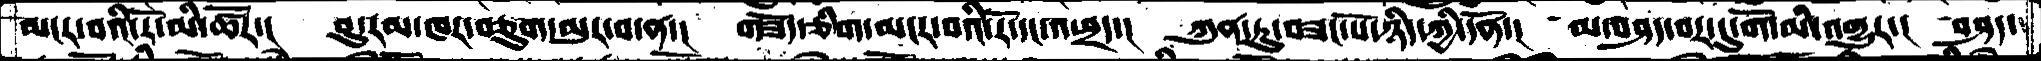མངར་བའི་རོ་མི་ཚོར་།  བུ་རམ་ཁར་བཅུག་མུར་བ་ན་།  གཟོད་ཅིག་མངར་བའི་རོ་དང་འཕྲད་།  ཀུན་ཏུ་བཟང་པོ་ཉིད་ཀྱི་དོན་།  མ་བཤད་བར་དུ་གོ་མི་འགྱུར་།  བཤད་
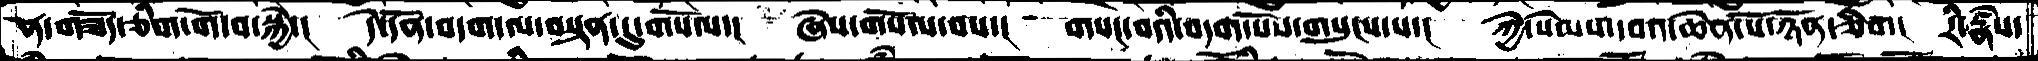ན་གཟོད་ཅིག་གོ་བ་སྐྱེ་།  དེ་དོན་བདག་ལ་བསྟན་དུ་གསོལ་།  ཞེས་གསོལ་བས་།  གསང་བའི་བདག་པོས་གསུངས་པ་།  ཀྱེ་སེམས་དཔའ་ཆེན་པོ་ཉོན་ཅིག།  རི་རྣཾས་
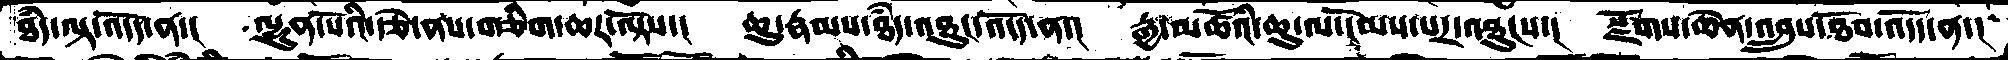ཐཾད་ལྟ་འདོད་ན་།  ལྷུན་པོའི་རྩེ་ནས་གཅིག་ཆར་ལྟོས་།  ཆུ་རྣམས་ཐཾད་འཐུང་འདོད་ན་།  རྒྱ་མཚོའི་ཆུ་ལ་ངོམས་པར་འཐུངས་།  སྫོགས་ཆེན་འབྲུས་ཐོབ་འདོད་ན་།
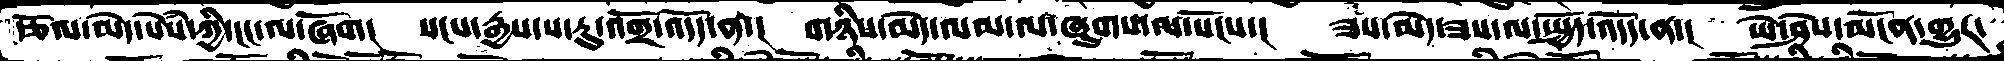རྩོལ་མེད་སེཾས་ཀྱི་ངང་ལ་ཞོག།  སངས་རྒྱས་ས་རུ་འགྲོ་འདོད་ན་།  གཉིས་མེད་ལམ་ལ་ཞུགས་ལ་སོངས་།  ཟས་མེད་ཟས་ལ་སྤྱོད་འདོད་ན་།  ཡེ་ཤེས་མངོན་གྱུར་
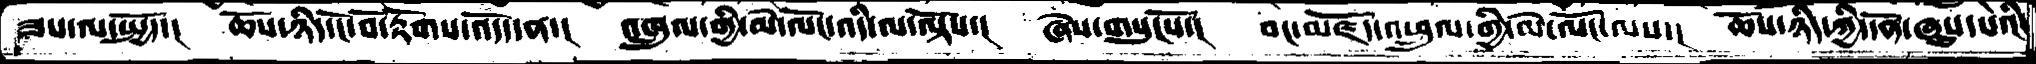ཟས་ལ་སྤྱོད་།  ཆོས་ཉིད་ངོ་བོ་རྟོགས་འདོད་ན་།  འཁྲུལ་གྱི་མེ་ལོང་འདི་ལ་ལྟོས་།  ཞེས་གསུངསོ་།  བང་མཛོད་འཕྲུལ་གྱི་མེ་ལོང་ལས་།  ཆོས་ཉིད་ཀྱི་དོན་ཞུས་པའི་
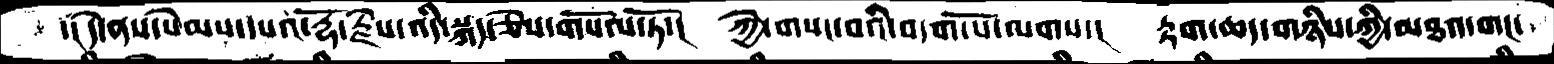་། དེ་ནས་སེམས་དཔའ་རྡོ་རྗེས་འདི་སྐད་ཅེས་གསོལ་ཏོ་།  ཀྱེ་གསང་བའི་བདག་པོ་ལགས་།  རྟག་ཆད་གཉིས་ཀྱི་མཐའ་གང་
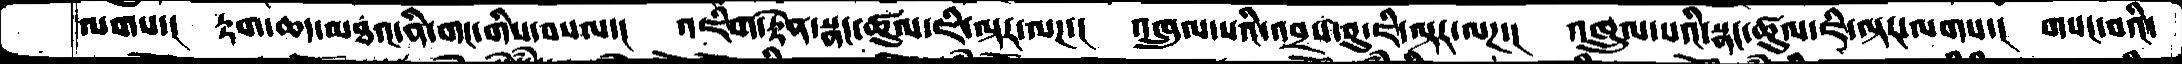ལགས་།  རྟག་ཆད་མཐའ་ནི་གང་གིས་བསལ་།  འཇིག་རྟེན་སྣང་ཚུལ་ཇི་ལྟར་ལཌ་།  འཁྲུལ་པའི་འབྲས་བུ་ཇི་ལྟར་ལཌ་།  འཁྲུལ་པའི་སྣང་ཚུལ་ཇི་ལྟར་ལགས་།  གསང་བའི་
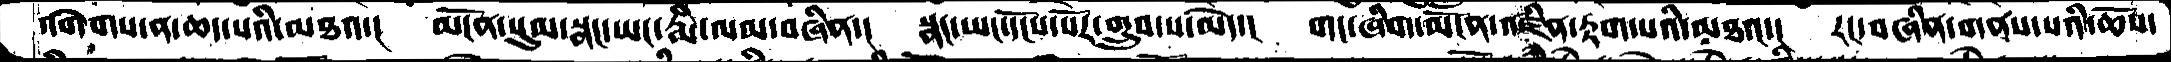འགེགས་ན་ཆད་པའི་མཐའ་།  མངོན་སུམ་སྣང་ཡང་རྨི་ལམ་བཞིན་།  སྣང་ཡང་དངོས་པོར་གྲུབ་པ་མེད་།  གང་ཞིག་མངོན་འཛིན་རྟག་པའི་མཐའ་།  རང་བཞིན་གནས་པའི་ཆོས་
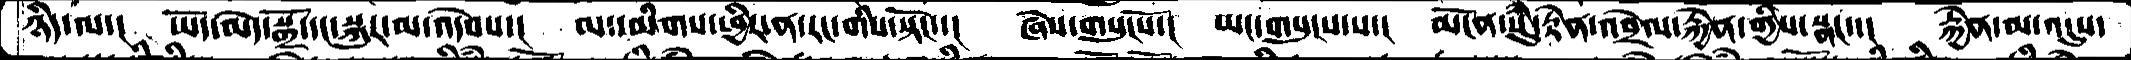ཉིད་ལ་།  ཡོད་མེད་སྒྲོ་དང་སྐུར་མ་འདེབས་།  མ་དམིགས་ཕྱིར་ན་རང་གིས་སྟོང་།  ཞེས་གསུངསོ་།  ཡང་གསུངས་པ་།  མངོན་སུཾ་རྟེན་འབྲེལ་རྐྱེན་གྱིས་སྣང་་།  རྐྱེན་མ་འདུས་
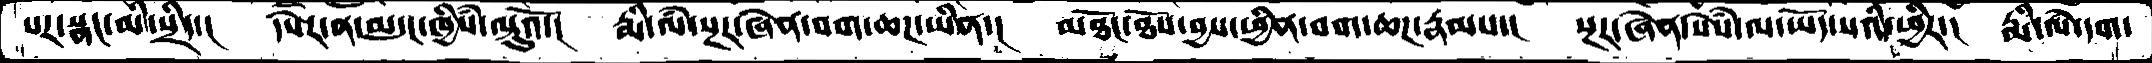པར་སྣང་མི་སྲིད་།  དཔེར་ན་མདུང་ཁྱིཾས་ལྟུའོ་།  རྨི་ལཾ་སྔར་ཞེན་བག་ཆཌ་ཡིན་།  མཐོང་ཐོས་བྱས་ནས་བག་ཆཌ་རྣམས་།  སྔར་ཞེན་སེཾས་ལ་ཡོད་པའི་ཕྱིར་།  རྨི་ལཾ་དག་
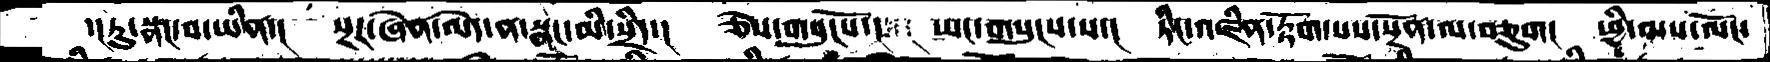་།ཏུ་སྣང་བ་ཡིན་།  སྔར་ཞེན་མེད་ན་སྣང་མི་སྲིད་།  ཅེས་གསུངསོ་།  ཡང་གསུངས་པ་།  ཏིང་འཛིན་རྟོག་པས་སྔོན་ལ་བཅུག།  ཕྱི་མས་ལོང་
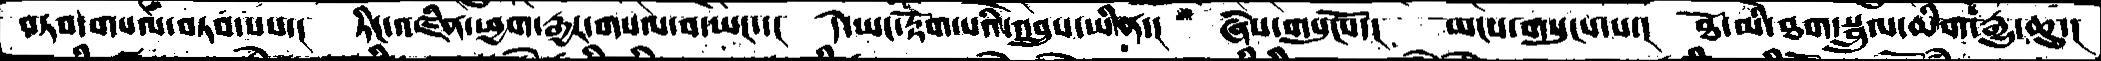བཏབ་གསལ་བཏབ་པས་།  ཏིང་འཛིན་ཕྱག་རྒྱར་གསལ་བ་ཡང་་།  དེ་ཡང་རྟོག་པའི་འབྲུས་ཡིན་།  ཞེས་གསུངསོ་།  ཡངས་གསུངས་པ་།  ཐོ་མི་ཐག་སྦྲུལ་མིག་རྒྱུ་ཆུ་།
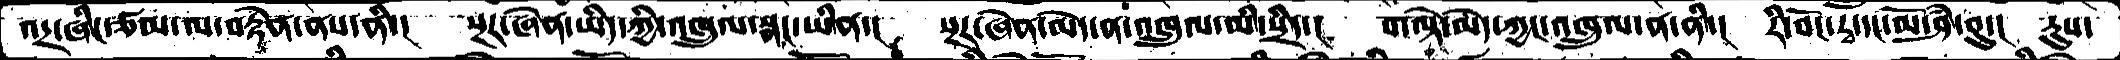འདྲ་ཞིང་ཙམ་ལ་བརྟེན་ནས་ནི་།  སྔར་ཞེན་ཡིད་ཀྱི་འཁྲུལ་སྣང་ཡིན་།  སྔར་ཞེན་མེད་ན་འཁྲུལ་མི་སྲིད་།  གལྟེ་མེད་ཀྱང་འཁྲུལ་ན་ནི་།  རི་བོང་རྭ་དང་མོ་ཤཾ་བུ་།  རུས་
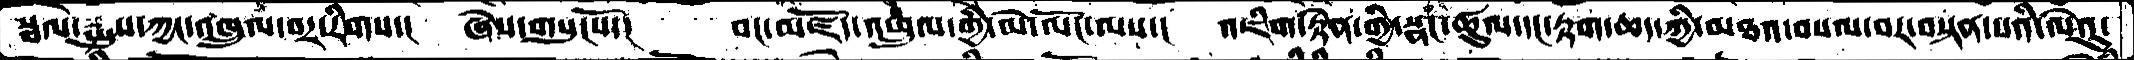སྦལ་སྤུས་ཀྱང་འཁྲུལ་བར་རིགས་།  ཞེས་གསུངསོ་།  བང་མཛོད་འཕྲུལ་གྱི་མེ་ལོང་ལས་།  འཇིག་རྟེན་གྱི་སྣང་ཚུལ་དང་རྟག་ཆད་ཀྱི་མཐའ་བསལ་བར་བསྟན་པའི་ལེའུ་
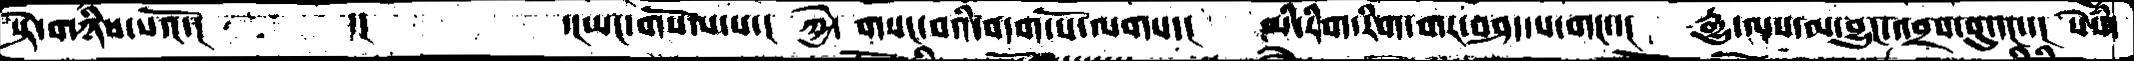སྟེ་གཉིས་པའོ་།     ་།      ་།ཡང་གསོལ་པ་། ཀྱེ་  གསང་བའི་བདག་པོ་ལགས་།  མི་་རིག་རིག་གར་བཤད་པ་གང་་།  རྒྱུ་ལས་མ་བྱུང་འབྲས་བུ་དང་་།  སེསཾ་
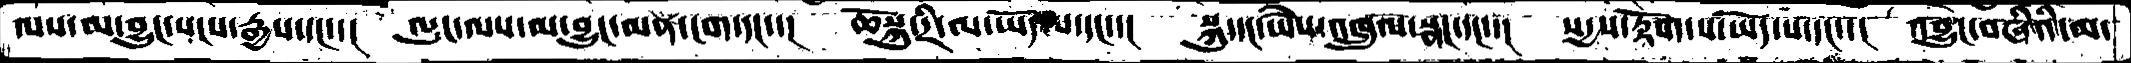ལས་མ་བྱུང་སངས་རྒྱས་དང་་།  ལུང་ལས་མ་བྱུང་མན་ངག་དང་་།  ཆོསྐུ་དྲི་ལ་ཡོད་པ་དང་་།  སྐུ་དང་ཡཻས་འཁྲུལ་སྣང་དང་་།  སདྱས་རྟོག་པ་ཡོད་པ་དང་་།  འབྱུང་བཞིའི་མ་
